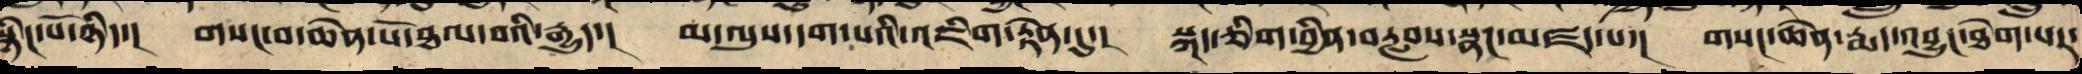སྙིང་པོ་ཉིད་། གསང་བ་ཆེན་པོ་ཐལ་བའི་རྒྱུད་། མ་ལུས་དག་པའི་འཇིག་རྟེན་དུ་། སྐད་ཅིག་བྱིན་བརླབས་སྣང་མཛད་པ་། གསང་ཆེན་རྨད་བྱུང་ཐེག་པར་
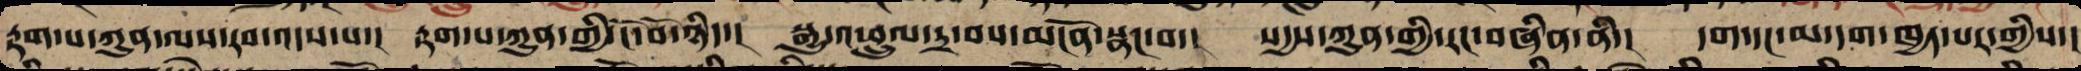རྟག་པ་ཀུན་ལས་རབ་འདས་པ་། རྟག་པ་ཀུན་གྱི་ངོ་བོ་ཉིད་། སྒྱུ་འཕྲུལ་དྲ་བས་མངོན་སྣང་བ་། སདྱས་ཀུན་གྱི་རང་བཞིན་ནི་། དག་དང་མ་དག་ཁྱད་པར་གྱིས་།
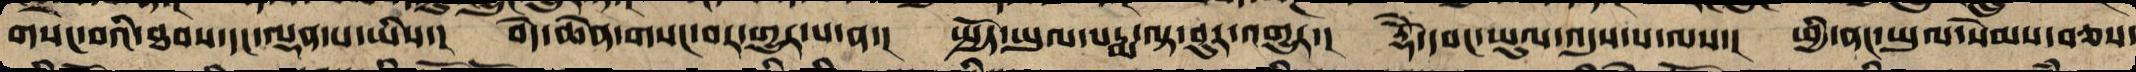གསང་བའི་ཐབས་དང་ལྡན་པ་ཡིས་། བདེ་ཆེན་གསང་བར་གྱུར་པ་ན་། སྤྱོད་ཡུལ་པདྨ་ལྟ་བུར་འགྱུར་། རྡོེ་དབང་ཡུལ་འདུས་པ་ལས་། ཕྱི་ནང་ཡུལ་སེམས་བཅས་
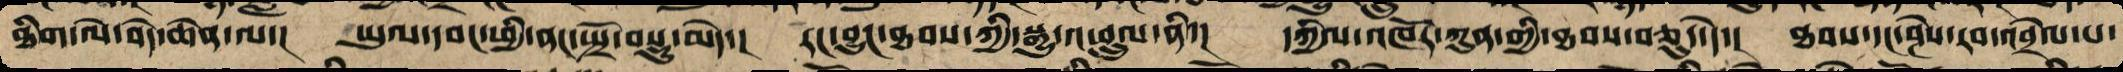ཐིག་ལེ་བདེ་ཆེན་ལ་། ཡུལ་དབང་ཕྱི་ནང་སྤྲོ་བསྡུ་མེད་། རང་བྱུང་ཐབས་ཀྱི་སྒྱུ་འཕྲུལ་ནི་། དཀྱིལ་འཁོར་ཀུན་གྱི་ཐབས་བཅུད་དེ་། ཐབས་དང་ཤེས་རབ་འབྲེལ་པ་
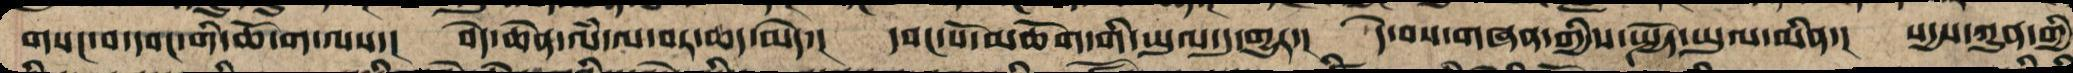གསང་བ་དབང་གི་ཆོ་ག་ལས་། བདེ་ཆེན་ལཾ་ལ་བར་ཆད་མེད་། དབང་པོ་མཆོག་གི་ཡུལ་དུ་གྱུར་། དེ་བས་གཞན་གྱི་སྤྱོད་ཡུལ་མིན་། སདྱས་ཀུན་གྱི
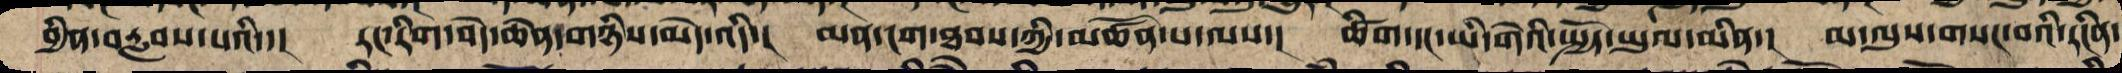བྱིན་བརླབས་པའི་། རང་རིག་བདེ་ཆེན་གཉིས་མེད་འདི་། མན་ངག་ཐབས་ཀྱིས་མཚོན་པ་ལས་། ཚིག་དང་ཡི་གེའི་སྤྱོད་ཡུལ་མིན་། མ་ལུས་གསང་བའི་རངིན་
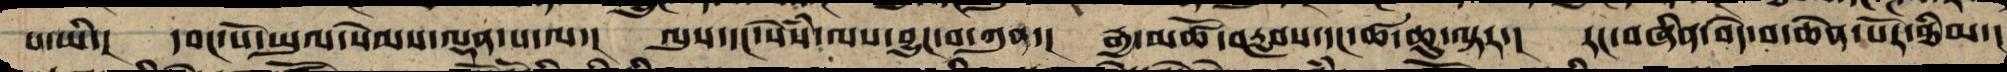པ་ཡི་། དབང་པོ་ཡུལ་སེམས་ལྡན་པ་ལ་། ལུས་དང་སེཾས་ལས་བྱུང་བ་ཀུན་། རྒྱ་མཚོ་བརླབས་དང་ཚ་ཆུ་ལྟར་། རང་བཞིན་བདེ་བ་ཆེན་པོར་ཐིམ་།
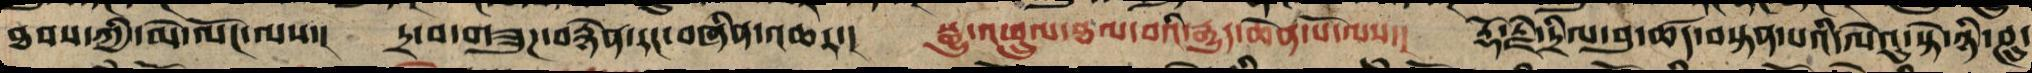ཐབས་ཀྱི་མེ་ལོང་ལས་། དྲ་བ་གཟུཌ་བརྙེན་རང་བཞིན་འཆར་། སྒྱུ་འཕྲུལ་ཐལ་བའི་རྒྱུད་ཆེན་པོ་ལས་། རྡོ་རྗེ་དྲིལ་བུ་ཚད་བསྟན་པའི་ལེའུ་སྟེ་ཉི་ཤུ་
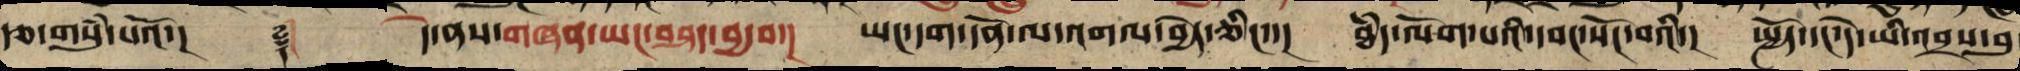རྩ་གསུམ་པའོ་།། ༈། དེ་ནས་གཞན་ཡང་བཤད་བྱ་བ་། གང་དག་དོན་ལ་འགལ་བྱེད་ཅིང་་། ཐཾད་ལོག་པའི་དབང་སོང་བའི་། སྤྱོད་པ་དེ་ཡི་འབྲས་བུ་
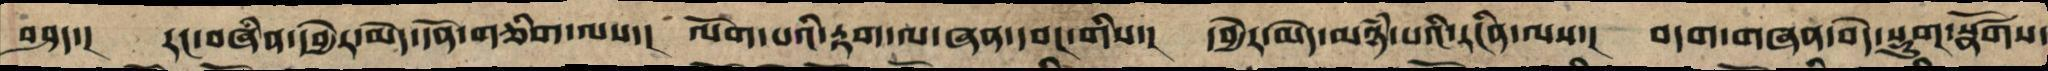བཤད་། རང་བཞིན་དབྱེར་མེད་དོན་གཅིག་ལས་། ལོག་པའི་རྟག་ལ་ཞན་དབང་གིས་། དབྱེར་མེད་མཉཾ་པའི་རང་བཞིན་ལས་། བདག་གཞན་བདེ་སྡུག་སྣ་ཚོགས་
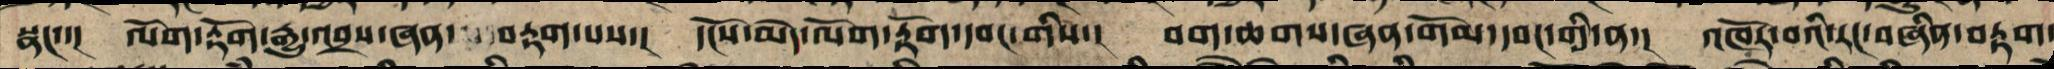སྣང་་། ལོག་རྟོག་རྒྱུ་འབྲས་ཞན་བརྟག་པ་། དངོས་མེད་ལོག་རྟོག་དབང་གིས་། བག་ཆགས་ཞན་གོམས་དབང་གི་ན་། འཁོར་བའི་རང་བཞིན་བརྟག་
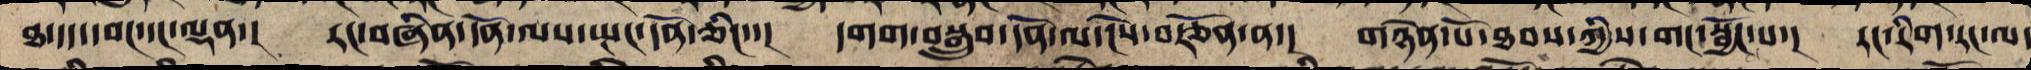ཐ་དད་དབང་དང་ལྡན་། རང་བཞིན་དོན་ལས་སྤངས་དོན་ཅིང་་། དགག་བསྒྲུབ་དོན་ལ་ངེས་རྩོན་ནས་། གཉེན་པོ་ཐབས་ཀྱིས་གང་སྦྱོང་པ་། རང་རིག་རང་ལ་
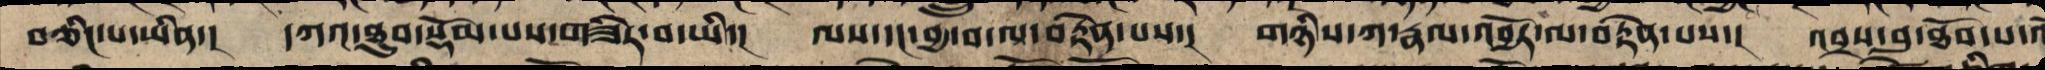བཅིངས་པ་ཡིན་། དཀའ་ཐུབ་སྡོམ་པས་གཟིར་བ་ཡིས་། ལས་དང་བྱ་བ་ལ་བརྟེན་པས་། གཉིས་ཀ་རྣལ་འབྱོར་ལ་བརྟེན་པས་། འབྲས་བུ་ཐོབ་པར་འདོ
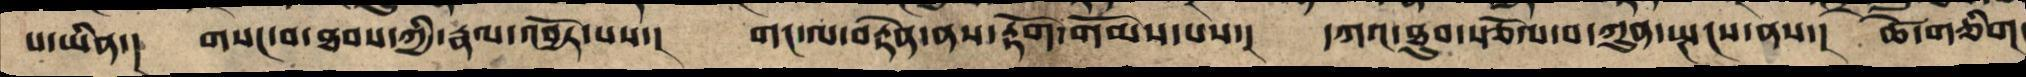པ་ཡིན་། གསང་བ་ཐབས་ཀྱི་རྣལ་འབྱོར་པས་། གང་ལ་བརྟེན་ནས་རྟོགས་གོམས་པས་། དཀའ་ཐུབ་རྩོལ་བ་ཀུན་སྤངས་ནས་། ཚེ་གཅིག་
